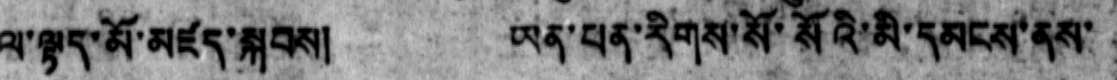ལ་ལྟད་མོ་མཛད་སྐབས། ཡན་པན་རིགས་སོ་སོའི་མི་དམངས་ནས་
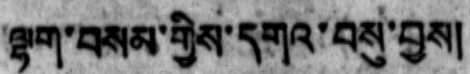ལྷག་བསམ་གྱིས་དགའ་བསུ་བྱས།
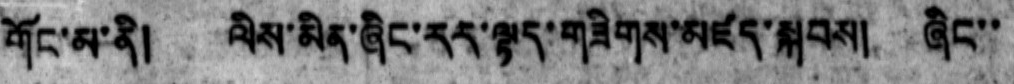གོང་མ་ནི། ལིས་མིན་ཞིང་རར་ལྟད་གཟིགས་མཛད་སྐབས། ཞིང་་
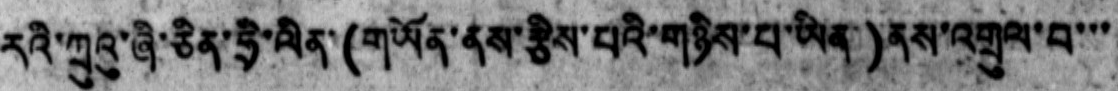དའི་ཀྲུའུ་ཞི་ཅིན་ཧྲི་ལིན་(གཡོན་ནས་རྩིས་པའི་གཉིས་པ་ཡིན་)ནས་འགྲུལ་བ་་་
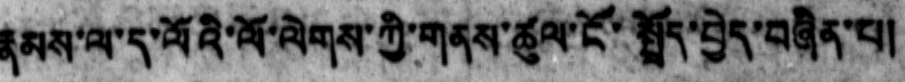རྣམས་ལ་ད་ལོའི་ལོ་ལེགས་ཀྱི་གནས་ཚུལ་ངོ་སྤྲོད་བྱེད་བཞིན་པ།
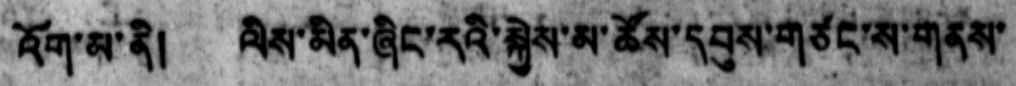འོག་མ་ནི། ལིས་མིན་ཞིང་རའི་སྐྱེས་མ་ཚོས་དབུས་གཙང་ས་གནས་
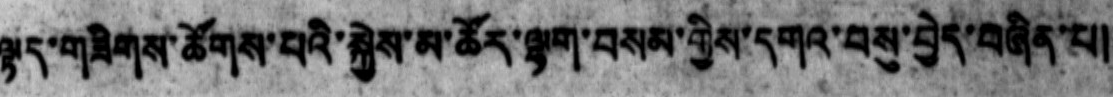ལྟད་གཟིགས་ཚོགས་པའི་སྐྱེས་མ་ཚོར་ལྷག་བསམ་གྱིས་དགའ་བསུ་བྱེད་བཞིན་པ།
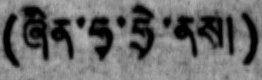(ཞིན་ཧྭ་ཧྲེ་ནས།)
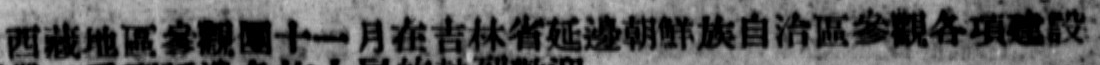西藏地區參觀團十一月在吉林省延邊朝鮮族自治區參觀各項建設
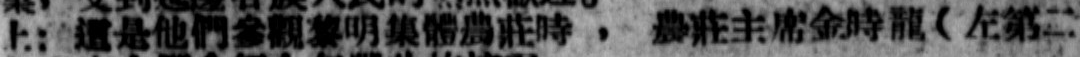上：這是他們參觀黎明集體農莊時， 農莊主席金時龍（左第二
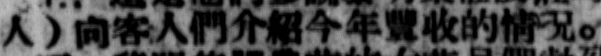人）向客人們介紹今年豐收的情況。
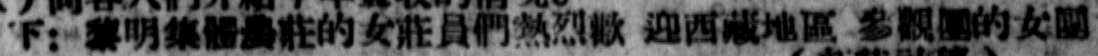下：黎明集體農莊的女莊員們熱烈歡迎西藏地區參觀團的女團
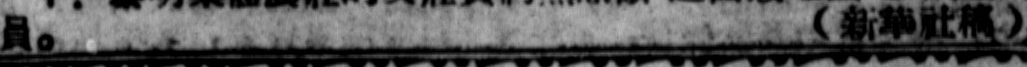員。 （新華社稿）
